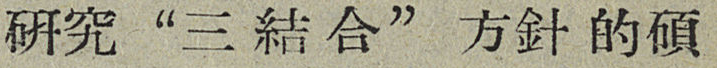研究“三結合”方針的碩
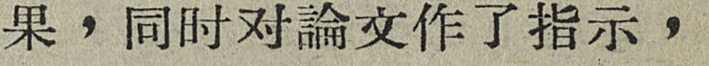果，同时对論文作了指示，
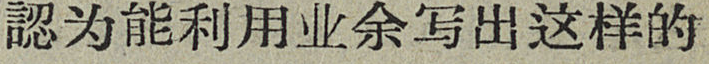認为能利用业余写出这样的
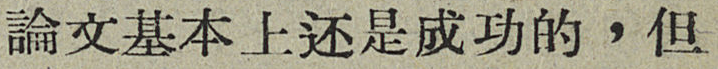論文基本上还是成功的，但
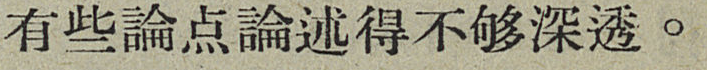有些論点論述得不够深透。
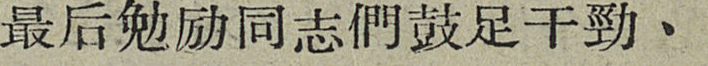最后勉励同志們鼓足干勁、
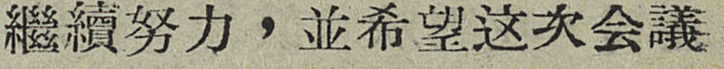繼續努力，並希望这次会議
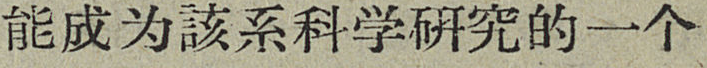能成为該系科学研究的一个
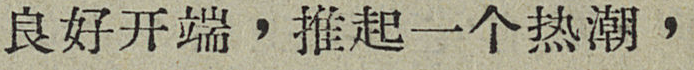良好开端，推起一个热潮，
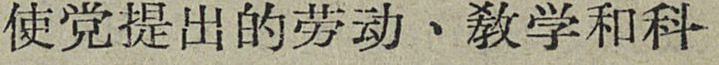使党提出的劳动、敎学和科
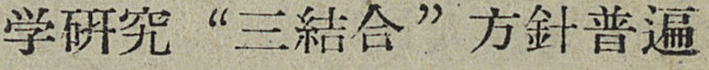学研究“三結合”方針普遍
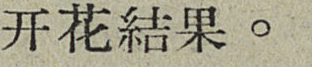开花結果。
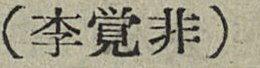（李覚非）
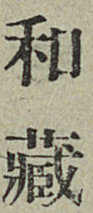和藏
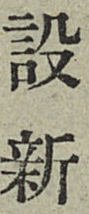族人
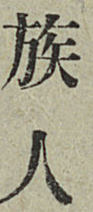民一
